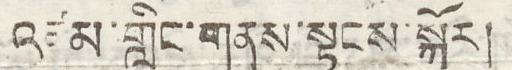འཛམ་གླིང་གནས་སྟངས་སྐོར།
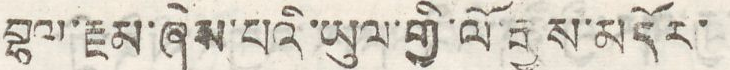བྷལ་རྗམ་ཞེས་པའི་ཡུལ་གྱི་ལོ་རྒྱུས་མདོར་
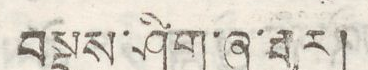བསྡུས་ཤིག་ཞུ་རྒྱུར།
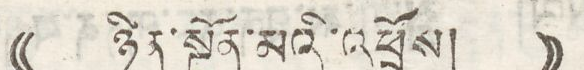(( ཉིན་སྔོན་མའི་འཕྲོས། ))
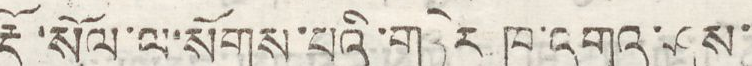རྡོ་སོལ་ལ་སོགས་པའི་གཏེར ཁ་འགའ་ཤས་
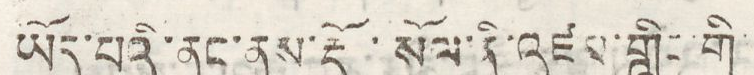ཡོད་པའི་ནང་ནས་རྡོ་སོལ་ནི་འཛམ་གླིང་གི
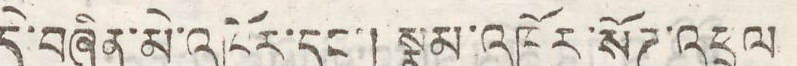དེ་བཞིན་མེ་འཁོར་དང་། སྣུམ་འཁོར་སོཌ་འཕྲུལ
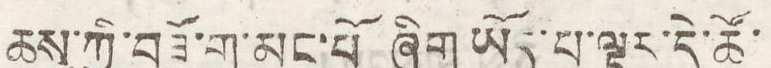ཆས་ཀྱི་བཟོ་གྲ་མང་པོ ཞིག ཡོད་པ་ལྟར་དེ་ཚོ་
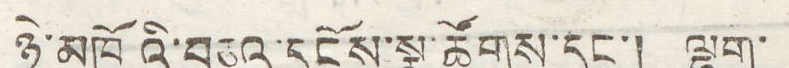ཉེ་འཁོའི་བཅའ་དངོས་སྣ་ཚོགས་དང་། ལྷག་
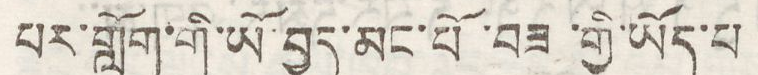པར་གློག་གི་ཡོ་བྱད་མང་པོ་བཟ་གྱི་ཡོད་པ
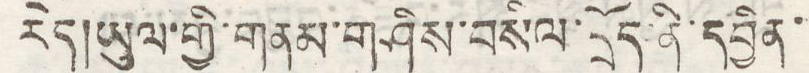རེད།ཡུལ་གྱི་གནས་གཤིས་བསིལ་དྲོད་ནི་དབྱིན་
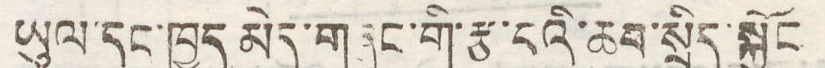ཡུལ་དང་ཁྱད མེད་གཞུང་གི་རྩ་བའི་ཆབ་སྲིད་སྐྱོང
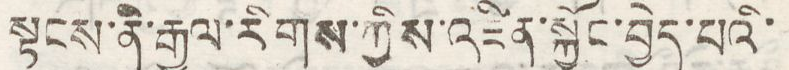སྟངས་ནི་རྒྱལ་རིགས་ཀྱིས་འཛིན་སྐྱོང་བྱེད་པའི་
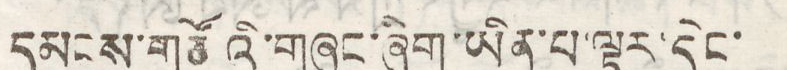དམངས་གཙོའི་གཞུང་ཞིག་ཡིན་པ་ལྟར་དེང་
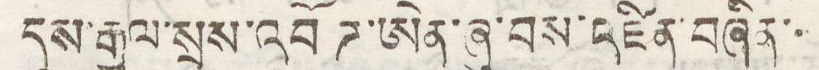དུས་རྒྱས་སྲས་འབོཌུ་ཨེན་ཞུ་བས་འཛིན་བཞིན་
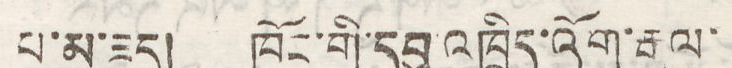པ་མ་ཟད། ཁོང་གི་དབུ་འཁྲིད་འོག་རྒྱལ་
